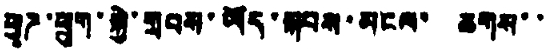ཕྱུཌ་ཕྲུག་སྐྱེ་གྲབས་ཡོད་སྐབས་མངས་ ཆགས་་
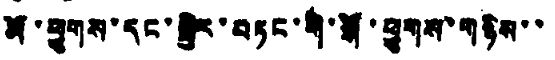མོ་ཕྱུགས་དང་སྤྱིར་བཏང་གི་སྒོ་ཕྱུགས་གཉིས་་
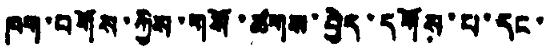ཁག་བགོས་ཀྱིས་གསོ་ཚགས་བྱེད་དགོས་པ་དང་
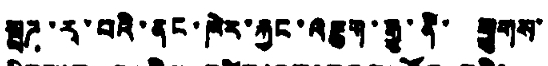སྦྲཌ་རྭ་བའི་ནང་ཁེར་རྐྱང་འཇུག་རྒྱུ་ནི་ ཕྱུགས་
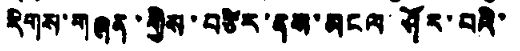རིགས་གཞན་གྱིས་བཙིར་ནས་མངལ་ཤོར་བའི་
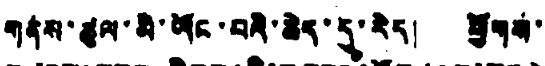གནས་ཚུལ་མི་ཡོང་བའི་ཆེད་དུ་རེད། ཕྱོགས་
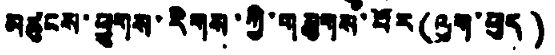མཚུངས་ཕྱུགས་རིགས་ཀྱི་གཟུགས་པོར(ལུག་ཕུད)
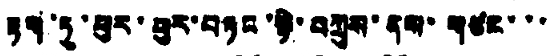རྟག་ཏུ་ཕུར་ཕུར་བཏང་སྟེ་བཀྲུས་ནས་གཙང་་་
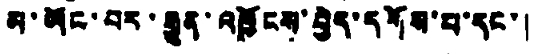མ་ཡོང་བར་རྒྱུན་འཁྱོངས་བྱེད་དགོས་པ་དང་།
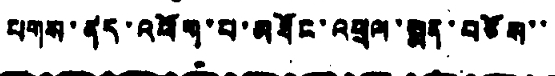པགས་ནད་འཕོག་བ་མཐོང་འཕྲལ་སྨན་བཅོས་་
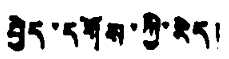བྱེད་དགོས་ཀྱི་རེད།
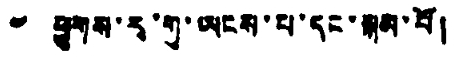༤ ཕྱུགས་རྭ་གུ་ཡངས་པ་དང་སྐམ་པོ།
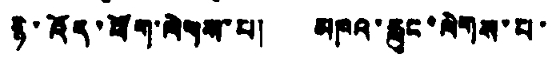ཉི་འོད་ཕོག་ལེགས་པ། མཁའ་རླུང་ལེགས་པ་
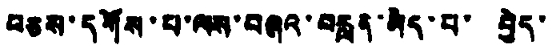བཅས་དགོས་པ་ལས་བཞའ་བརླན་མེད་པ་ བྱེད་
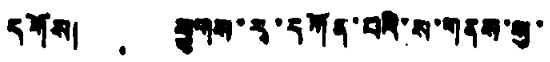དགོས། ཕྱུགས་རྭ་དཀོན་པའི་ས་གནས་སུ་
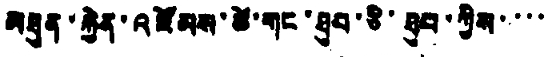མཐུན་རྐྱེན་འཛོམས་ཚེ་གང་ཐུབ་ཅི་ཐུབ་ཀྱིས་་་་
